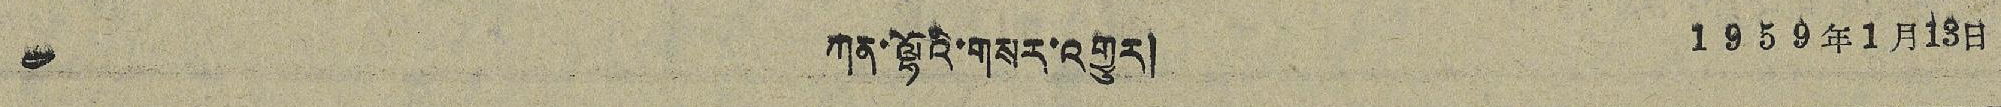༤ ཀན་ལྷའི་གསར་འགྱུར། 1959年1月13日
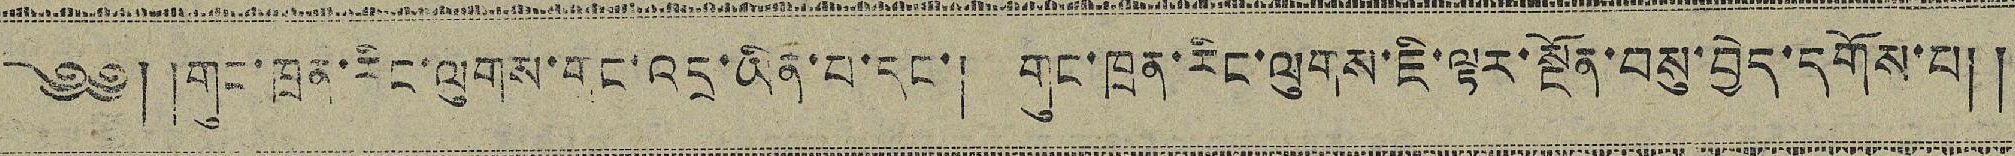༄༅། །གུང་ཁྲན་རིང་ལུགས་གང་འདྲ་ཡིན་པ་དང་། གུང་ཁྲན་རིང་ལུགས་ཇི་ལྟར་སྔོན་བསུ་བྱེད་དགོས་པ། །
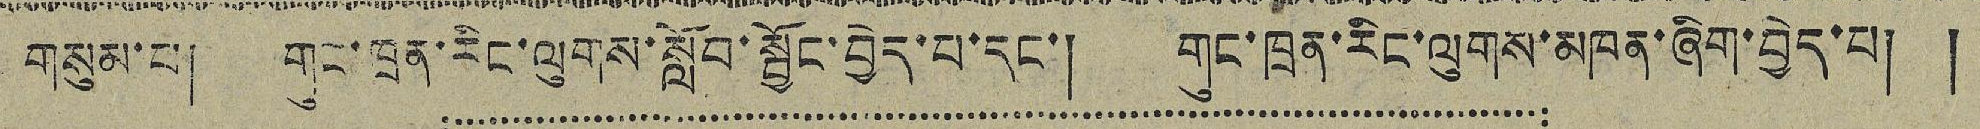གསུམ་པ། གུང་ཁྲན་རིང་ལུགས་སློབ་སྦྱོང་བྱེད་པ་དང་། གུང་ཁྲན་རིང་ལུགས་མཁན་ཞིག་བྱེད་པ། །
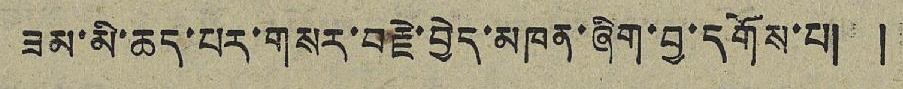ཟམ་མི་ཆད་པར་གསར་བརྗེ་བྱེད་མཁན་ཞིག་བྱ་དགོས་པ། །
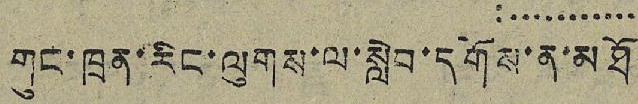གུང་ཁྲན་རིང་ལུགས་ལ་སླེབ་དགོས་ན་མཐོ
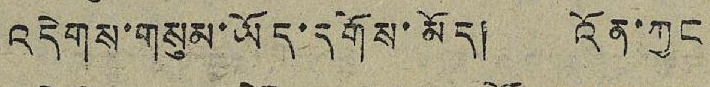འདེགས་གསུམ་ཡོད་དགོས་མོད། འོན་ཀྱང
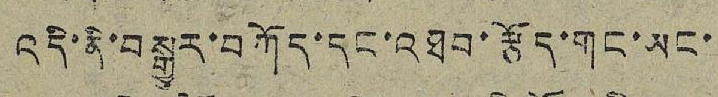འདི་ནི་བསྒྱུར་བཀོད་དང་འཐབ་རྩོད་གང་ཡང་
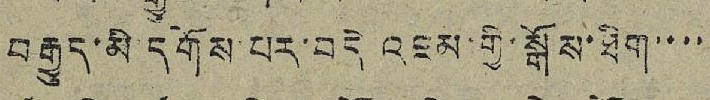བརྒྱུད་མི་དགོས པར་བདེ འཇམ་གྱི་སྒོས་ཐིག་་་་
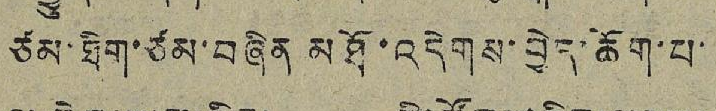ཙམ་ཐིག་ཙམ་བཞིན མཐོ་འདེགས་བྱེད་ཆོག་པ་
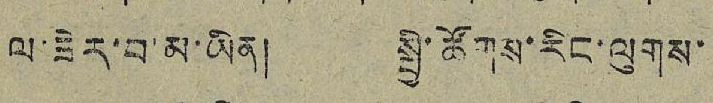ལ་ཟེར་བ་མ་ཡིན། སྤྱི་ཚོགས་རིང་ལུགས་
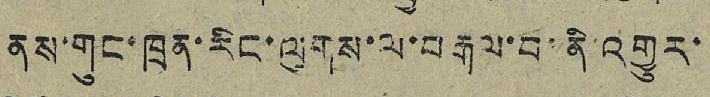ནས་གུང་ཁྲན་རིང་ལུགས་ལ་བརྒལ་བ་ནི་འགྱུར་
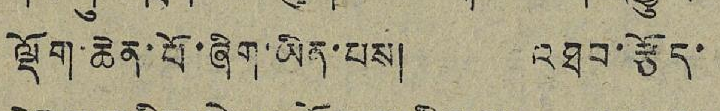ལྡོག་ཆེན་པོ་ཞིག་ཡིན་པས། འཐབ་རྩོད་
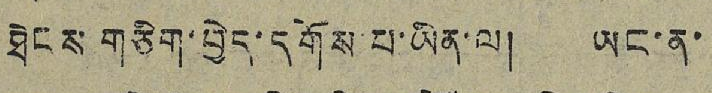ཐེངས་གཅིག་བྱེད་དགོས་པ་ཡིན་ལ། ཡང་ན་
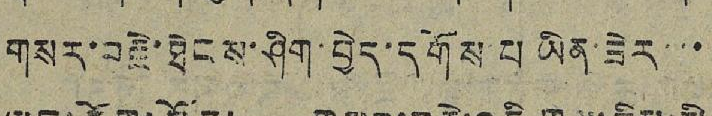གསར་བརྗེ་ཐེངས་ཤིག་བྱེད་དགོས་པ ཡིན་ཟེར་་་
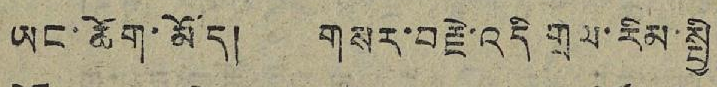ཡང་ཆོག་མོད། གསར་བརྗེ་འདི གྲལ་རིམ་སྤྱི
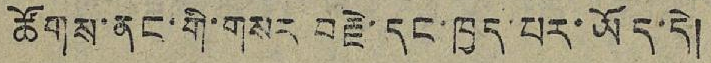ཚོགས་ནང་གི་གསར བརྗེ་དང་ཁྱད་པར་ཡོད་དེ།
